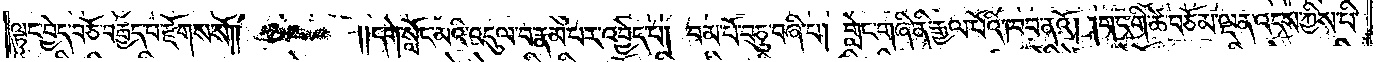ལྟུང་བྱེད་བཅོ་བརྒྱད་པ་རྫོགས་སོ༎ ༎དགེ་སློང་མའི་འདུལ་བ་རྣམ་པར་འབྱེད་པ། བམ་པོ་བཅུ་བཞི་པ། གླེང་གཞི་ནི་རྒྱལ་པོའི་ཁབ་ནའོ། །གང་གི་ཚེ་བཅོམ་ལྡན་འདས་ཀྱིས་པི་
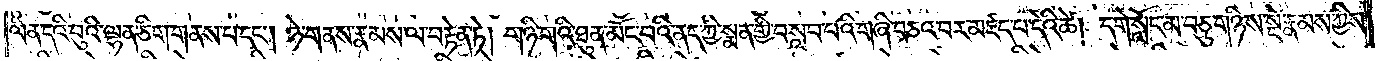ལིན་དའི་བུའི་ལྷན་ཅིག་གནས་པ་དང༌། ཉེ་གནས་རྣམས་ལ་བརྟེན་ཏེ། གཉི་གའི་ཐུན་མོང་བའི་ནད་ཀྱི་སྨན་གྱི་བསླབ་པའི་གཞི་བཅའ་བར་མཛད་པ་དེའི་ཚེ། དགེ་སློང་མ་བཅུ་གཉིས་སྡེ་རྣམས་ཀྱིས་
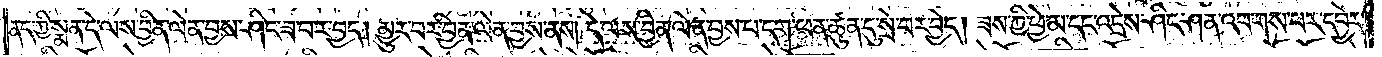ནད་ཀྱི་སྨན་དེ་ལས་བྱིན་ལེན་བྱས་ཤིང་ཟ་བར་བྱད། མྱུར་བར་བྱིན་ལེན་བྱས་ནས། དེ་ལས་བྱིན་ལེན་བྱས་པ་དག་ཕན་ཚུན་དུ་སྲེ་བར་བྱེད། ཟས་ཀྱི་ཕྱེ་མ་དང་འདྲེས་ཤིང་ཤན་འབགས་པར་དབྱེར་
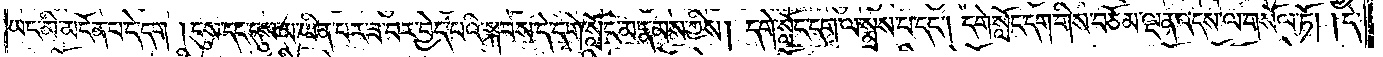ཡང་མི་མངོན་པ་དེ་དག །དུས་དང་དུས་མ་ཡིན་པར་ཟ་བར་བྱེད་པའི་སྐབས་དེ་དགེ་སློང་མ་རྣམས་ཀྱིས། དགེ་སློང་དག་ལ་སྨྲས་པ་དང༌། དགེ་སློང་དག་གིས་བཅོམ་ལྡན་འདས་ལ་གསོལ་ཏོ། །དེ་
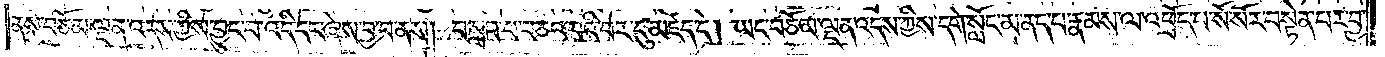ནས་བཅོམ་ལྡན་འདས་ཀྱིས་བྱུང་བ་འདི་དང་ཞེས་བྱ་བ་ནས། བསླབ་པ་བཅའ་བའི་བར་དུ་མཛད་དེ། ཡང་བཅོམ་ལྡན་འདས་ཀྱིས་དགེ་སློང་མ་ནད་པ་རྣམས་ལ་འཕྲོད་པ་སོ་སོར་བསྟེན་པར་བྱ་
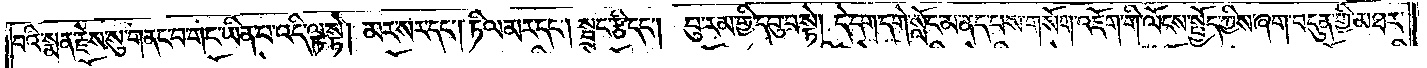བའི་སྨན་རྗེས་སུ་གནང་བ་གང་ཡིན་པ་འདི་ལྟ་སྟེ། མར་སར་དང༌། ཏིལ་མར་དང༌། སྦྲང་རྩི་དང༌། བུ་རམ་གྱི་དབུ་བ་སྟེ། དེ་དག་དགེ་སློང་མ་ནད་པས་གསོག་འཇོག་གི་ལོངས་སྤྱོད་ཀྱིས་ཞག་བདུན་གྱི་མཐར་
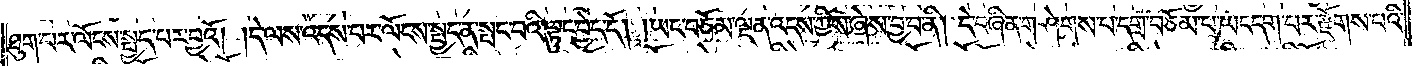ཐུག་པར་ལོངས་སྤྱད་པར་བྱའོ། །དེ་ལས་འདས་པར་ལོངས་སྤྱད་ན་སྤང་བའི་ལྟུང་བྱེད་དོ། །ཡང་བཅོམ་ལྡན་འདས་ཀྱིས་ཞེས་བྱ་བ་ནི། དེ་བཞིན་གཤེགས་པ་དགྲ་བཅོམ་པ་ཡང་དག་པར་རྫོགས་པའི་
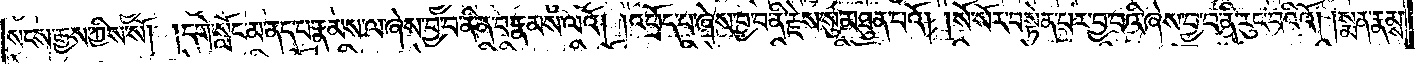སངས་རྒྱས་ཀྱིས་སོ། །དགེ་སློང་མ་ནད་པ་རྣམས་ལ་ཞེས་བྱ་བ་ནི་ན་བ་རྣམས་ལའོ། །འཕྲོད་པ་ཞེས་བྱ་བ་ནི་རྗེས་སུ་མཐུན་པའོ། །སོ་སོར་བསྟེན་པར་བྱ་བའི་ཞེས་བྱ་བའི་ནི་རུང་བའིའོ། །སྨན་རྣམས་
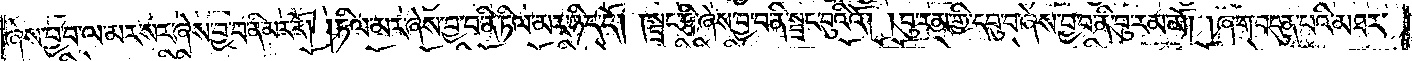ཞེས་བྱ་བ་ལ་མར་སར་ཞེས་བྱ་བ་ནི་མར་རོ། །ཏིལ་མར་ཞེས་བྱ་བ་ནི་ཏིལ་མར་ཉིད་དོ། །སྦྲང་རྩི་ཞེས་བྱ་བ་ནི་སྦྲང་བུའིའོ། །བུ་རམ་གྱི་དབུ་བ་ཞེས་བྱ་བ་ནི་བུ་རམ་མོ། །ཞག་བདུན་པའི་མཐར་
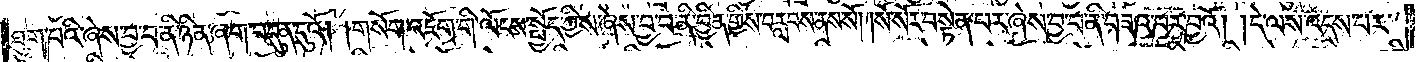ཐུག་པའི་ཞེས་བྱ་བ་ནི་ཉིན་ཞག་བདུན་དུའོ། །གསོག་འཇོག་གི་ལོངས་སྤྱོད་ཀྱིས་ཞེས་བྱ་བ་ནི་བྱིན་གྱིས་བརླབས་ནས་སོ། །སོ་སོར་བསྟེན་པར་ཞེས་བྱ་བ་ནི་བཟའ་བར་བྱའོ། །དེ་ལས་འདས་པར་
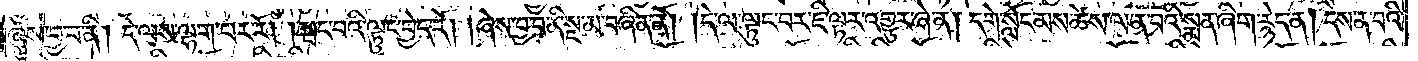ཞེས་བྱ་བ་ནི། དེ་ལས་ལྷག་པར་རོ། །སྤང་བའི་ལྟུང་བྱེད་དོ། །ཞེས་བྱ་བ་ནི་སྔ་མ་བཞིན་ནོ། །དེ་ལ་ལྟུང་བར་ཇི་ལྟར་འགྱུར་ཞེ་ན། དགེ་སློང་མས་ཚེས་ལ་ན་བའི་སྨན་ཞིག་རྙེད་ན། དེས་ན་བའི་
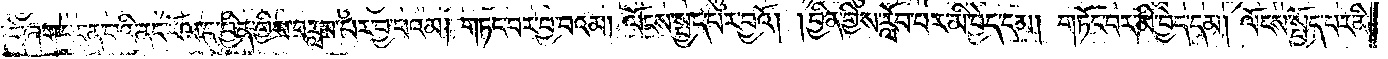སྨན་དེ་ཞག་བདུན་པའི་ནང་རོལ་དུ་བྱིན་གྱིས་བརླབ་པར་བྱ་བའམ། གཏང་བར་བྱ་བའམ། ལོངས་སྤྱད་པར་བྱའོ། །བྱིན་གྱིས་རློབ་པར་མི་བྱེད་དམ། གཏོང་བར་མི་བྱེད་དམ། ལོངས་སྤྱོད་པར་མི་
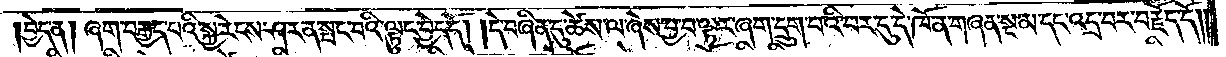བྱེད་ན། ཞག་བརྒྱད་པའི་སྐྱ་རེངས་ཤར་ན་སྤང་བའི་ལྟུང་བྱེད་དོ། །དེ་བཞིན་དུ་ཚེས་ལ་ཞེས་བྱ་བ་ལྟར་ཞག་དྲུག་བའི་བར་དུ་དེ་ཁོ་ན་གཞན་སྔ་མ་དང་འདྲ་བར་བརྗོད་དོ། །
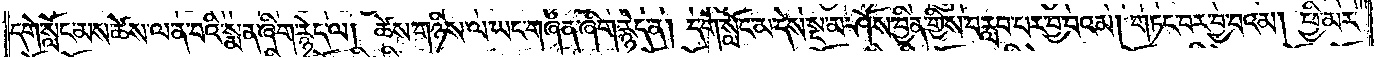དགེ་སློང་མས་ཚེས་ལ་ན་བའི་སྨན་ཞིག་རྙེད་ལ། ཚེས་གཉིས་ལ་ཡང་གཞན་ཞིག་རྙེད་ན། དགེ་སློང་མ་དེས་སྔ་མ་ཤོས་བྱིན་གྱིས་བརླབ་པར་བྱ་བའམ། གཏང་བར་བྱ་བའམ། ཕྱི་མར་
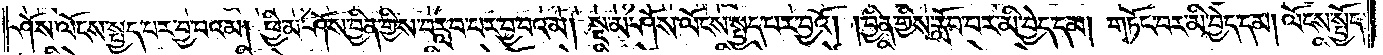ཤོས་ལོངས་སྤྱད་པར་བྱ་བའམ། ཕྱི་མ་ཤོས་བྱིན་གྱིས་བརླབ་པར་བྱ་བའམ། སྔ་མ་ཤོས་ལོངས་སྤྱད་པར་བྱའོ། །བྱིན་གྱིས་རློབ་པར་མི་བྱེད་དམ། གཏོང་བར་མི་བྱེད་དམ། ལོངས་སྤྱོད་
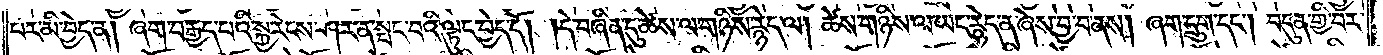པར་མི་བྱེད་ན། ཞག་བརྒྱད་པའི་སྐྱ་རེངས་ཤར་ན་སྤང་བའི་ལྟུང་བྱེད་དོ། །དེ་བཞིན་དུ་ཚེས་ལ་གཉིས་རྙེད་ལ། ཚེས་གཉིས་ལ་ཡང་རྙེད་ན་ཞེས་བྱ་བ་ནས། ཞག་དྲུག་དང༌། བདུན་གྱི་བར་
